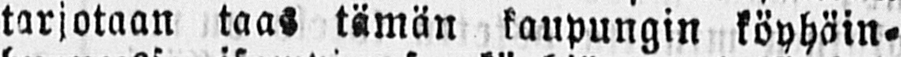tarjotaan taas tämän kaupungin köyhäin-
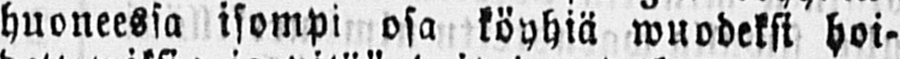huoneessa isompi osa köyhiä wuodekst hoi-
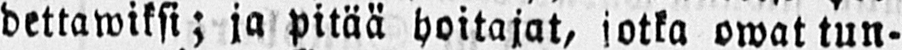dettawiksi; ja pitää hoitajat, jotka owat tun-
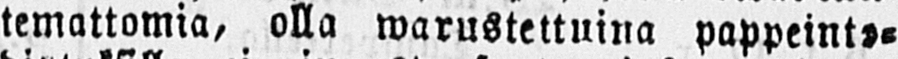temattomia, olla warustettuina pappeints-
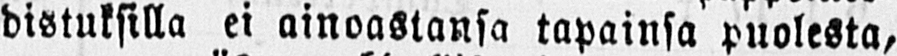distuksilla ei ainoastansa tapainsa puolesta,
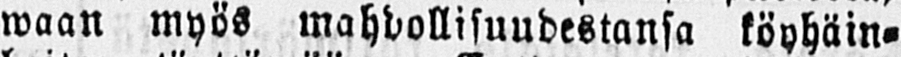waan myös mahdollisuudestansa köyhäin-
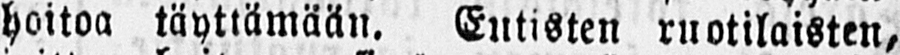hoitoa täyttämään. Eutisten ruotilaisten,
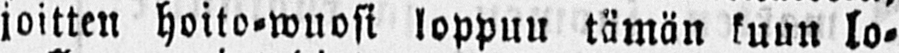joitten hoito-wuosi loppuu tämän kuun lo-
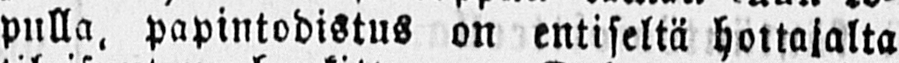pulla, papintodistus on entiseltä hottajalta
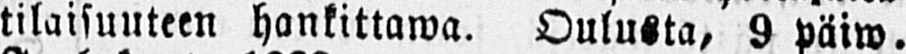tilaisuuteen hankittawa. Oulusta, 9 päiw.
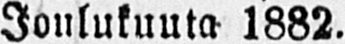Joulukuuta 1882.
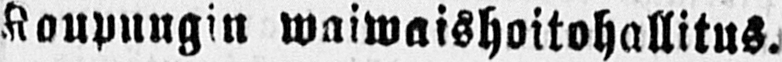Kaupungin waiwaishoitohallitus.
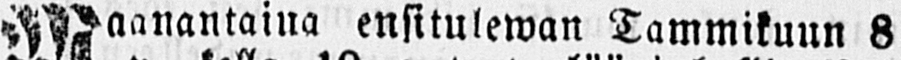Maanantaina ensitulewan Tammikuun 8
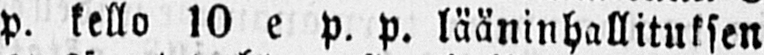p. kello 10 e p. p. lääninhallituksen
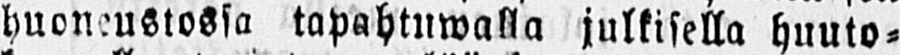huoneustossa tapahtuwalla julkisella huuto-
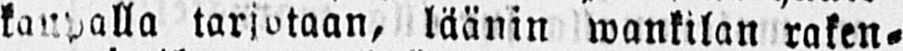kaupalla tarjotaan, läänin wankilan raken-
